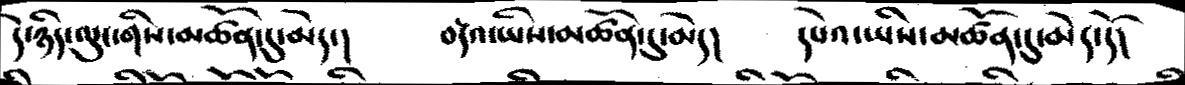དེ་ཉིད་ལུང་གིས་མཚོན་དུ་མེད་།   བརྡའ་ཡིས་མཚོན་དུ་མེད།   དཔེའ་ཡིས་མཚོན་དུ་མེད་དོ།
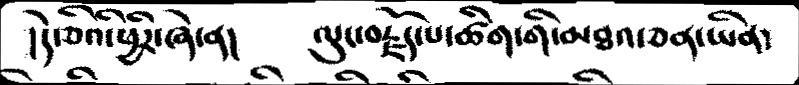།དེ་ཅིའི་ཕྱིར་ཞེ་ན།   ལུང་བརྗོད་པ་ཚིག་གི་མཐའ་ཅན་ཡིན་
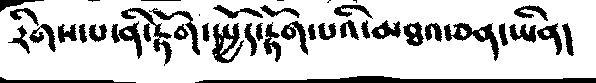རིགས་པ་ནི་རྟོག་སྤྱོད་རྟོག་པའི་མཐའ་ཅན་ཡིན།
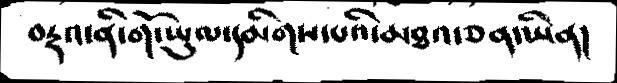བརྡའ་ནི་གོ་ཡུལ་དམིགས་པའི་མཐའ་ཅན་ཡིན།
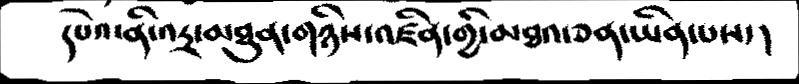དཔེའ་ནི་འདྲ་མཐུན་གཉིས་འཛིན་གྱི་མཐའ་ཅན་ཡིན་པས་།
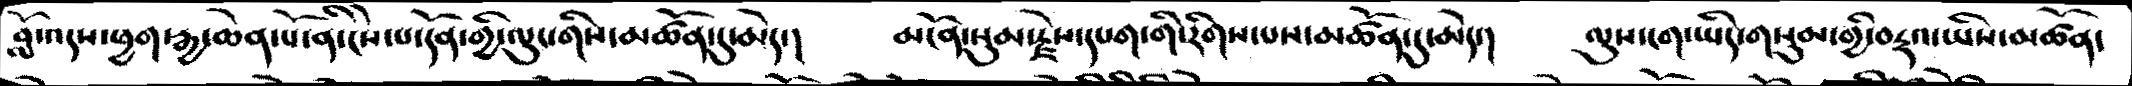བློ་འདས་ཕྱག་རྒྱ་ཆེན་པོ་ནི་ངེས་པ་དོན་གྱི་ལུང་གིས་མཚོན་དུ་མེད་།  མངོན་སུམ་རྗེས་དཔག་གི་རིགས་པས་མཚོན་དུ་མེད་།  ལུས་ངག་ཡིད་གསུམ་གྱི་བརྡའ་ཡིས་མཚོན་
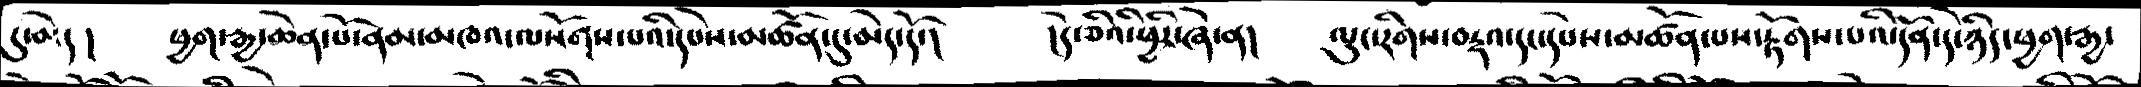དུ་མེད།   ཕྱག་རྒྱ་ཆེན་པོ་ནམ་མཁའ་ལསོགས་པའི་དཔེས་མཚོན་དུ་མེད་དོ་།   །དེ་ཅིའི་ཕྱིར་ཞེ་ན།   ལུང་རིགས་བརྡའ་དང་དཔེས་མཚོན་པས་རྟོགས་པའི་དོན་དེ་ཉིད་ཕྱག་རྒྱ་
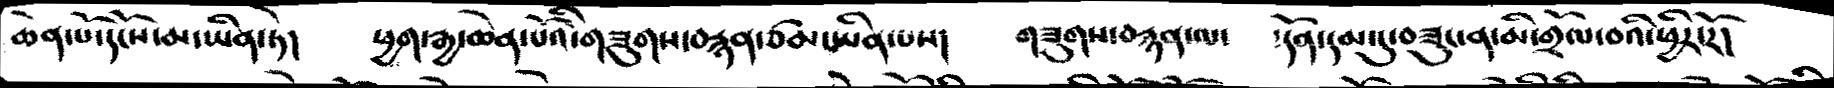ཆེན་པོ་དངོས་མ་ཡིན་ཏེ།   ཕྱག་རྒྱ་ཆེན་པོའི་གཟུགས་བརྙན་ཙམ་ཡིན་པས།   གཟུགས་བརྙན་ལ་   ་དོན་དམ་དུ་བཟུང་ན་མི་གྲོལ་བའི་ཕྱིར་རོ།
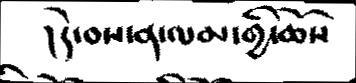།དེ་བས་ན་ལམ་གྱི་ཆོས
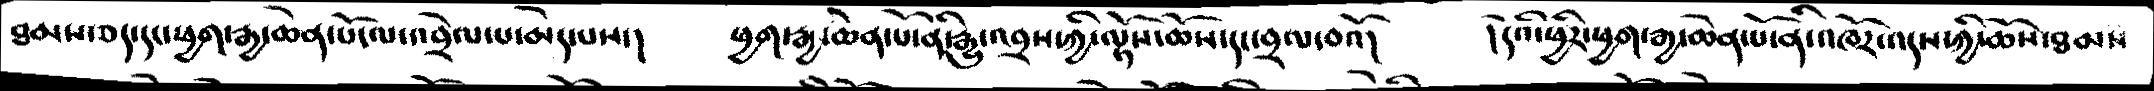ཐམས་ཅད་དང་ཕྱག་རྒྱ་ཆེན་པོ་ལ་འབྲེལ་པ་མེད་པས་།   ཕྱག་རྒྱ་ཆེན་པོ་ནི་རྒྱུ་འབྲས་ཀྱི་ལྟོས་ཆོས་དང་བྲལ་བའོ།    །དེའི་ཕྱིར་ཕྱག་རྒྱ་ཆེན་པོ་ནི་འཁོར་འདས་ཀྱི་ཆོས་ཐམས
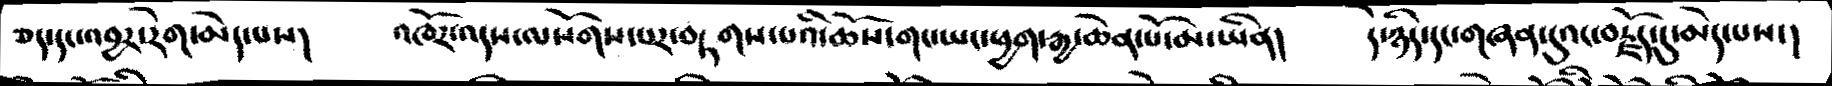ཅད་དང་འབྱར་རེག་མེད་པས།    འཁོར་འདས་ལསོགས་པར་བཏགས་པའི་ཆོས་གང་ཡང་ཕྱག་རྒྱ་ཆེན་པོ་མ་ཡིན།    དེ་ཉིད་དང་གཞན་དུའང་བརྗོད་དུ་མེད་པས་།
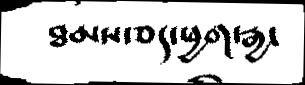ཐམས་ཅད་ཕྱག་རྒྱ་
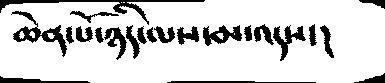ཆེན་པོ་ཉིད་ལས་མ་འདས་།
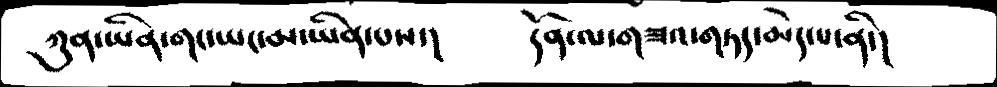ཀུན་ཡིན་གང་ཡང་མ་ཡིན་པས་།      དོན་ལ་གཟའ་གཏད་མེད་པ་ནི་།
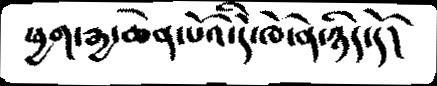ཕྱག་རྒྱ་ཆེན་པོའི་དེ་ཁོ་ན་ཉིད་དོ།
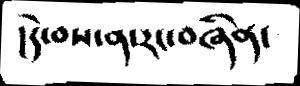།དེ་བས་ན་རང་བཞིན་
